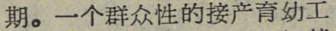期。一个群众性的接产育幼工
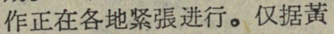作正在各地紧張进行。仅据黃
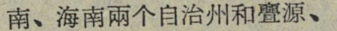南、海南兩个自治州和亹源、
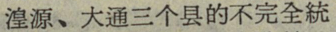湟源、大通三个县的不完全統
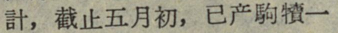計，截止五月初，已产駒犢一
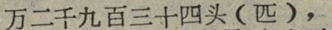万二千九百三十四头（匹），
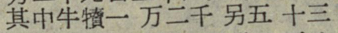其中牛犢一万二千另五十三
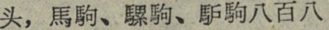头，馬駒、騾駒、馿駒八百八
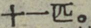十一匹。
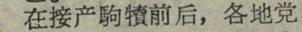在接产駒犢前后，各地党
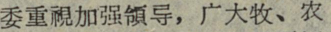委重視加强領导，广大牧、农
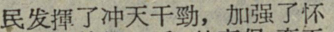民发揮了冲天干勁，加强了怀
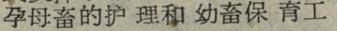孕母畜的护理和助畜保育工
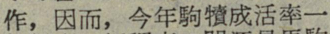作，因而，今年駒犢成活率一
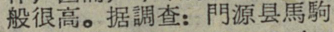般很高。据調查：門源县馬駒
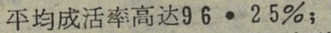平均成活率高达96・25％；
